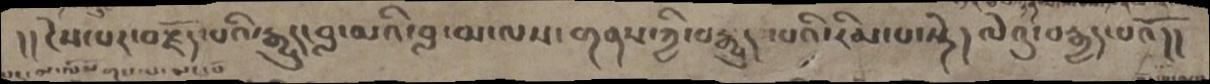།།ངེས་པར་བརྗོད་པའི་རྒྱུད་བླ་མའི་བླ་མ་ལས་གནས་ཀྱི་བརྒྱུད་པའི་རིམ་པ་སྟེ། ལེའུ་བརྒྱད་པའོ།།
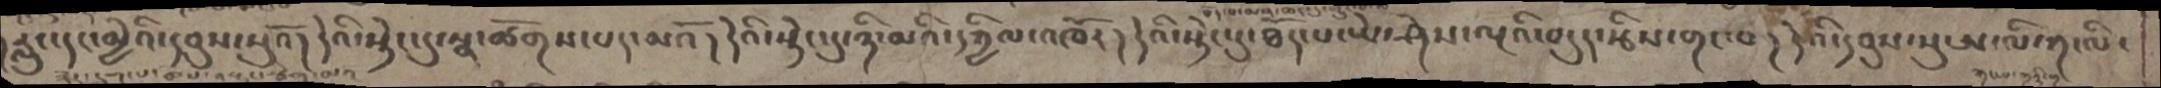རླུང་དང་མྱེའི་དབུས་སུའོ། དེའི་སྟེང་དུ་སྣ་ཚོགས་པད་མའོ། དེའི་སྟེང་དུ་ཉི་མའི་དཀྱིལ་འཁོར། དེའི་སྟེང་དུ་ཐོད་པ་ཡེ་ཤེས་ལྔའི་བདུད་རྩིས་གང་བ། དེའི་དབུས་སུ་ཨ་ལི་ཀ་ལི་
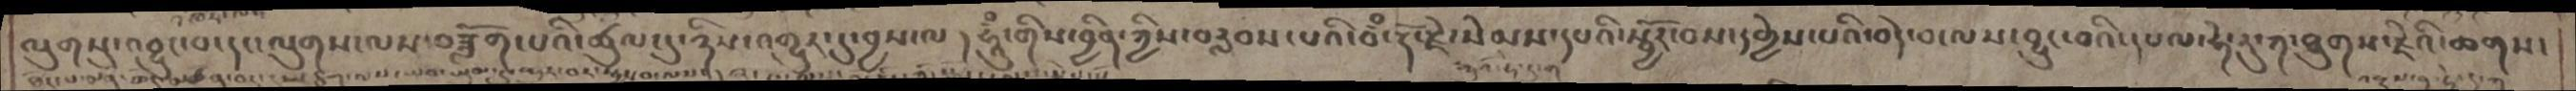ལུགསུ་འབྱུང་བ་དང་ལུགས་ལས་བཟློག་པའི་ཚུལ་དུ་ཉིས་འགྱུར་དུ་བྱས་ལ། ཧཱུཾ་གིས་བྱིན་ཀྱིས་བརླབས་པའི་བྃ་རྡོ་རྗེ་སེམས་དཔའི་སྦྱོར་བས་དགྱེས་པའི་བདེ་བ་ལས་བྱུང་བའི་དཔལ་ཧེ་རུ་ཀ་ཐུགས་རྗེའི་ཆགས་
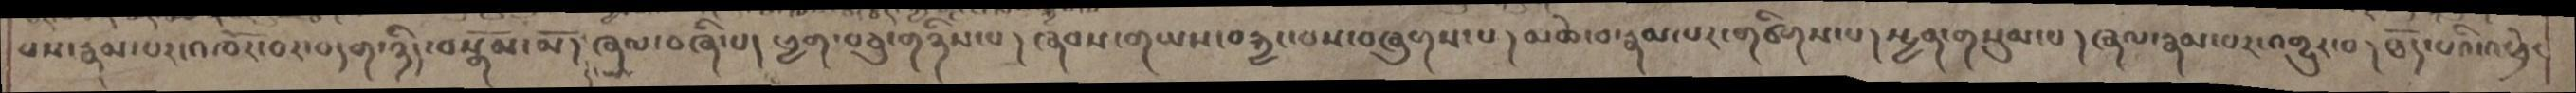པས་རྣམ་པར་འཁོར་བར་བདག་ཉིད་བསྒོམ་མོ། ཞལ་བཞི་པ། ཕྱག་བཅུ་གཉིས་པ། ཞབས་གཡས་བརྐྱང་བས་བཞུགས་པ། མཆེ་བ་རྣམ་པར་གཙིགས་པ། སྤྱན་གསུམ་པ། ཞལ་རྣམ་པར་འགྱུར་བ། ཐོད་པའི་འཕྲེང
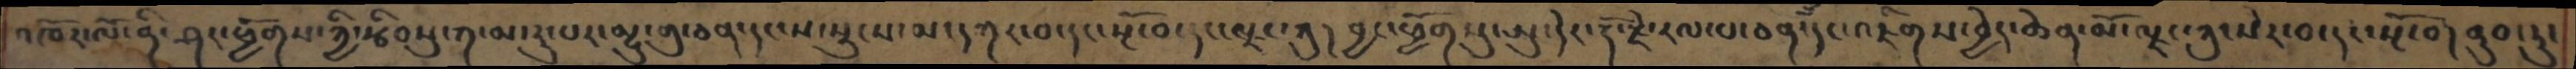འཁོར་ལོ་ནི་ཤར་ཕྱོགས་ཀྱི་རྩིབསུ་ཀ་མ་རུ་པར་མྱུ་གུ་ཅན་དང་ས་སྲུངས་མ་དཀར་བ་དང་སྔོ་བ་དང་ལྗང་ཀུ། བྱང་ཕྱོགསུ་ཨུ་དེང་རྡོ་རྗེ་རལ་པ་ཅན་དང་འཇིགས་བྱེད་ཆེན་མོ་ལྗང་ཀུ་སེར་བ་དང་སྔོ་བ།  ནུབ་ཏུ་
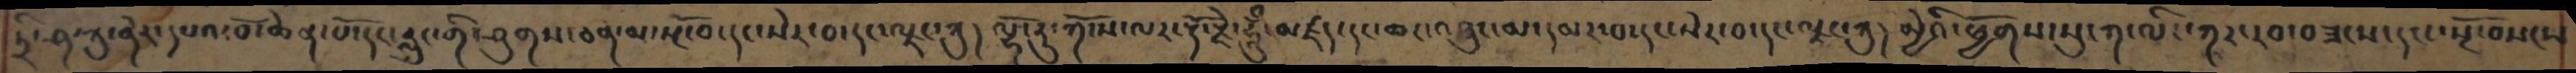ཏྲི་ན་ཏུ་ནོར་དཔའ་བོ་ཆེན་པོ་དང་རླུང་གི་ཤུགས་ཅན་མ་སྔོ་བ་དང་སེར་བ་དང་ལྗང་ཀུ། ལྷོངརུ་ཀོ་ས་ལར་རྡོ་རྗེ་ཧཱུྃ་མཛད་དང་ཆང་འཐུང་མ་དམར་བ་དང་སེར་བ་དང་ལྗང་ཀུ། མྱེའི་ཕྱོགས་སུ་ཀ་ལིང་ཀར་རབ་བཟངས་དང་སྔོ་བསངས
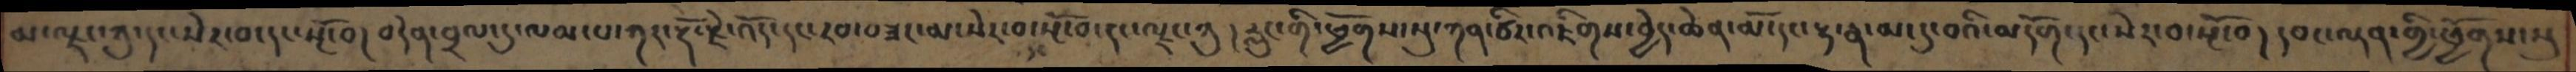མ་ལྗང་ཀུ་དང་སེར་བ་དང་སྔོ་བ། བདེན་བྲལ་དུ་ལམ་པ་ཀར་རྡོ་རྗེ་འོད་དང་རབ་བཟང་མ་སེར་བ་སྔོ་བ་དང་ལྗང་ཀུ །རླུང་གི་ཕྱོགས་སུ་ཀན་ཙིར་འཇིགས་བྱེད་ཆེན་མོ་དང་རྟ་རྣ་མ་དུ་བའི་མདོག་དང་སེར་བ་སྔོ་བ། །དབང་ལྡན་གྱི་ཕྱོགས་སུ
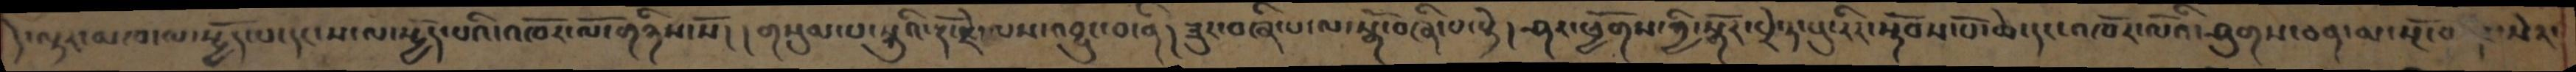དེ་ལྟར་མཁ་ལ་སྤྱོད་པ་དང་ས་ལ་སྤྱོད་པའི་འཁོར་ལོ་གཉིས་སོ། །གསུམ་པ་སྐུའི་རྡོ་རྗེ་ལས་འབྱུང་བ་ནི། ཟུར་བཞི་པ་ལ་སྒོ་བཞི་པ་སྟེ། ཤར་ཕྱོགས་ཀྱི་སྒོར་པྲེ་ཏ་སུ་རིར་སྟོབས་པོ་ཆེ་དང་འཁོར་ལོའི་ཤུགས་ཅན་མ་སྔོ་བ་དང་སེར་
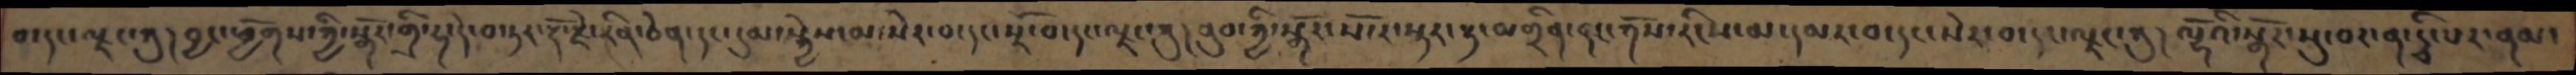བ་དང་ལྗང་ཀུ། བྱང་ཕྱོགས་ཀྱི་སྒོར་གྲི་དྷ་དེ་བ་ཏར་རྡོ་རྗེ་རིན་ཅེན་དང་དུམ་སྐྱེས་མ་སེར་བ་དང་སྔོ་བ་དང་ལྗང་ཀུ། ནུབ་ཀྱི་སྒོར་སོ་ར་སྟར་རྟ་མགྲིན་དང་གོས་རིངས་མ་དམར་བ་དང་སེར་བ་དང་ལྗང་ཀུ། ལྷོའི་སྒོར་སུ་བར་ན་དྭི་པར་ནམ
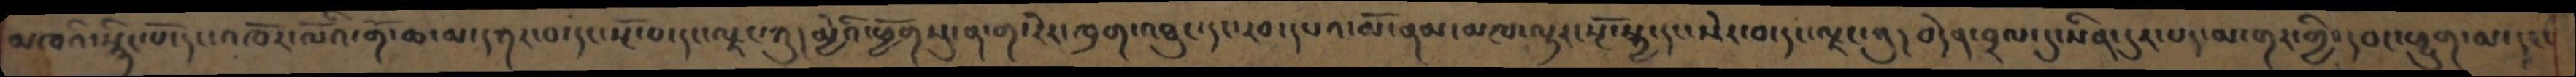མཁའི་སྙིང་པོ་དང་འཁོར་ལོའི་གོ་ཆ་མ་དཀར་བ་དང་སྔོ་བ་དང་ལྗང་ཀུ།  མྱེའི་ཕྱོགསུ་ན་ག་རེར་ཁྲག་འཐུང་དང་རབ་དཔའ་མོ་ནམ་མཁ་ལྟར་སྔོ་སྐྱ་དང་སེར་བ་དང་ལྗང་ཀུ། བདེན་བྲལ་དུ་སིན་དུར་པད་མ་གར་གྱི་དབང་ཕྱུག་མ་དང་
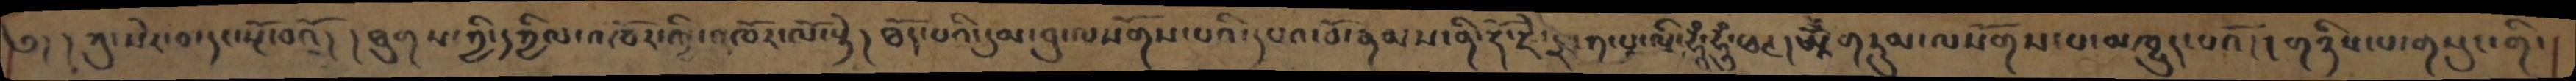༄། །ཀུ་སེར་བ་དང་སྔོ་བའོ། །ཐུགས་ཀྱི་དཀྱིལ་འཁོར་གྱི་འཁོར་ལོ་སྟེ། ཐོད་པའི་དུམ་བུ་ལསོགས་པའི་དཔའ་བོ་རྣམས་ནི་རྡོ་རྗེ་དྲ་ཀ་པ་ལི་ཧཱུྃ་ཧཱུྃ་ཕཊ། ཨཱོྃ་གཏུམ་ལསོགས་པ་མཁྱུད་པའོ། །གཉིས་པ་གསུང་གི་
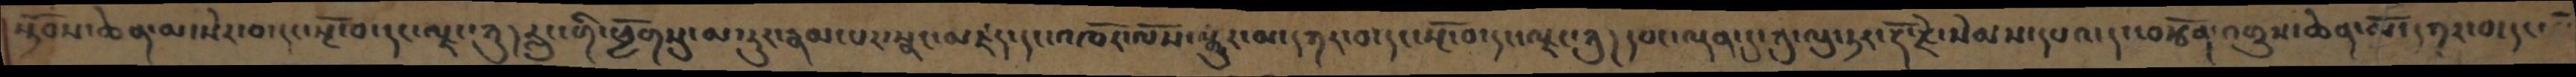སྟོབས་ཆེན་མ་སེར་བ་དང་སྔོ་བ་དང་ལྗང་ཀུ། རླུང་གི་ཕྱོགསུ་མ་རུང་རྣམ་པར་སྣང་མཛད་དང་འཁོར་ལོས་སྒྱུར་མ་དཀར་བ་དང་སྔོ་བ་དང་ལྗང་ཀུ། དབང་དལྡན་དུ་ཀུ་ལུ་ཏར་རྡོ་རྗེ་སེམས་དཔའ་དང་བརྩོན་འགྲུས་ཆེན་མོ་དཀར་བ་དང་
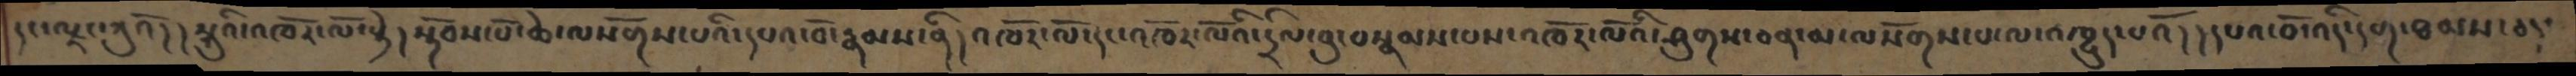དང་ལྗང་ཀུའོ། །སྐུའི་འཁོར་ལོ་སྟེ །སྟོབས་པོ་ཆེ་ལསོགས་པའི་དཔའ་བོ་རྣམས་ནི། འཁོར་ལོ་དང་འཁོར་ལོའི་དྲིལ་བུ་བསྣམས་པས་འཁོར་ལོའི་ཤུགས་ཅན་མ་ལསོགས་པ་ལ་འཁྱུད་པའོ། །དཔའ་བོ་འདི་དག་ཐམས་ཅད་
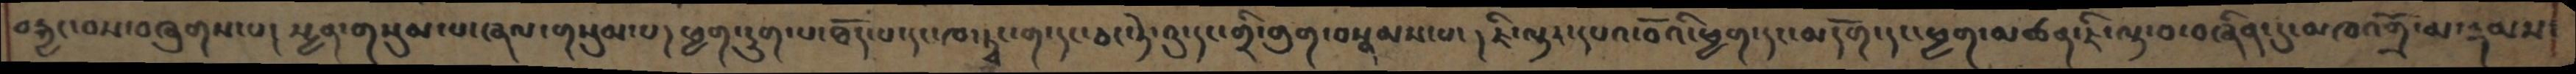བརྐྱང་བས་བཞུགས་པ། སྤྱན་གསུམ་པ་ཞལ་གསུམ་པ། ཕྱག་དྲུག་པ་ཐོད་པ་དང་ཁ་ཏྭང་ག་དང་ཅང་ཏེ་འུ་དང་གྲི་གུག་བསྣམས་པ་ ། ཇི་ལྟར་དཔའ་བོའི་ཕྱག་དང་མདོག་དང་ཕྱག་མཚན་ཇི་ལྟ་བ་བཞིན་དུ་མཁའགྲོ་མ་རྣམས་
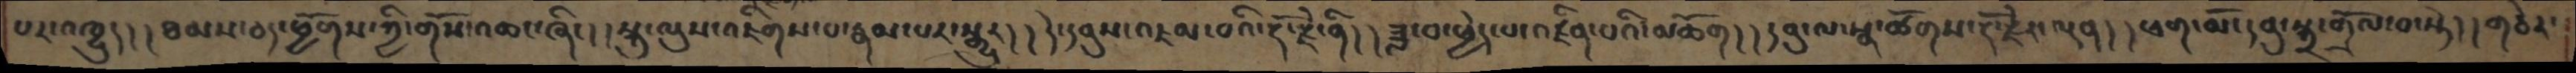པར་འཁྱུད། །ཐམས་ཅད་ཕྱོགས་ཀྱི་གོས་འཆང་ཞིང་། །སྐུ་ལུས་འཇིགས་པ་རྣམ་པར་སྒྱུར། །དེ་དབུས་འཇམ་པའི་རྡོ་རྗེ་ནི། །ཟླ་བ་ཕྱེད་པ་འཛིན་པའི་མཆོག། །དབུ་ལ་སྣ་ཚོགས་རྡོ་རྗེ་ལྡན། །ཕག་མོ་དབུ་སྐྲ་གྲོལ་བ་སྟེ། །གཅེར་
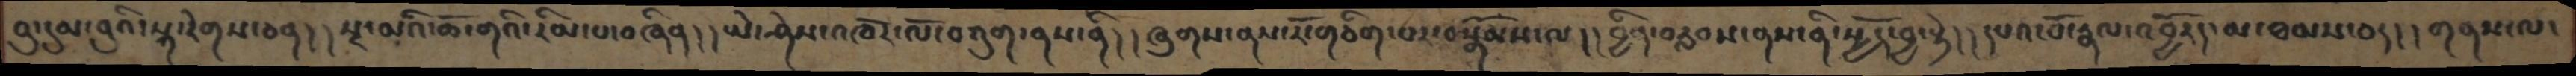བུ་དུམ་བུའི་སྐ་རེགས་ཅན། །སྔ་མའི་ཆོ་གའི་རིམ་པ་བཞིན། །ཡེས་ཤེས་འཁོར་ལོ་བཀུག་ནས་ནི། །ཞུགས་ནས་རོ་གཅིག་པར་བསྒོམས་ལ། །བྱིན་བརླབས་ནས་ནི་་སྦྱོར་བྱ་སྟེ། །དཔའ་བོ་རྣལ་འབྱོརད་མ་ཐམས་ཅད། །གནས་ལ་
